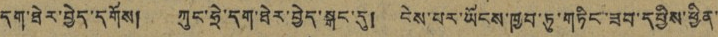དག་ཐེར་བྱེད་དགོས། ཀུང་ཧྲེ་དག་ཐེར་བྱེད་སྒང་དུ། ངེས་པར་ཡོངས་ཁྱབ་ཏུ་གཏིང་ཟབ་དབྱིས་ཕྱིན་
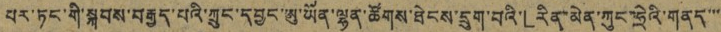པར་ཏང་གི་སྐབས་བརྒྱད་པའི་ཀྲུང་དབྱང་ཨུ་ཡོན་ལྷན་ཚོགས་ཐེངས་དྲུག་པའི་「རིན་མེན་ཀུང་ཧྲེའི་གནད་་་་
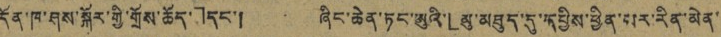དོན་ཁ་ཤས་སྐོར་གྱི་གྲོས་ཆོད་」དང་། ཞིང་ཆེན་ཏང་ཨུའི་「མུ་མཐུད་དུ་དབྱིས་ཕྱིན་པར་རིན་མེན་
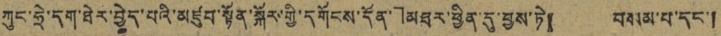ཀུང་ཧྲེ་དག་ཐེར་བྱེད་པའི་མཛུབ་སྟོན་སྐོར་གྱི་དགོངས་དོན་」མཐར་ཕྱིན་དུ་བྱས་ཏེ། བསམ་པ་དང་།
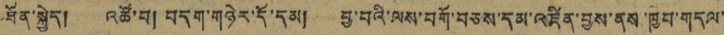ཐོན་སྐྱེད། འཚོ་བ། བདག་གཉེར་དོ་དམ། བྱ་བའི་ལས་བགོ་བཅས་དམ་འཛིན་བྱས་ནས་ཁྱབ་གདལ་
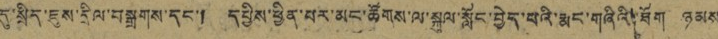དུ་སྲིད་ཇུས་དྲིལ་བསྒྲགས་དང་། དཔྱིས་ཕྱིན་པར་མང་ཚོགས་ལ་སྐུལ་སློང་བྱེད་པའི་རྨང་གཞིའི་ཐོག ཉམས
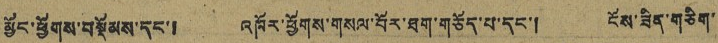མྱོང་ཕྱོགས་བསྡོམས་དང་། འཁོར་ཕྱོགས་གསལ་པོར་ཐག་གཅོད་པ་དང་། ངོས་ཟིན་གཅིག་
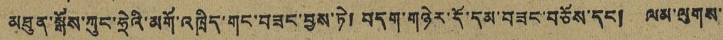མཐུན་སྒོས་ཀུང་ཧྲེའི་མགོ་འཁྲིད་གང་བཟང་བྱས་ཏེ། བདག་གཉེར་དོ་དམ་བཟང་བཅོས་དང་། ལམ་ལུགས་
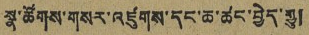སྣ་ཚོགས་གསར་འཛུགས་དང་ཆ་ཚང་བྱེད་རྒྱུ།
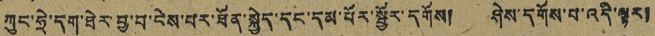ཀུང་ཧྲེ་དག་ཐེར་བྱ་བ་ངེས་པར་ཐོན་སྐྱེད་དང་དམ་པོར་སྦྱོར་དགོས། ཤེས་དགོས་པ་འདི་ལྟར།
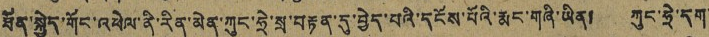ཐོན་སྐྱེད་གོང་འཕེལ་ནི་རིན་མེན་ཀུང་ཧྲེ་སྲ་བརྟན་དུ་བྱེད་པའི་དངོས་པོའི་རྨང་གཞི་ཡིན། ཀུང་ཧྲེ་དག་
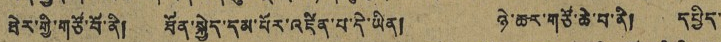ཐེར་གྱི་གཙོ་བོ་ནི། ཐོན་སྐྱེད་དམ་པོར་འཛིན་པ་དེ་ཡིན། ཉེར་ཆར་གཙོ་ཆེ་བ་ནི། དཔྱིད་
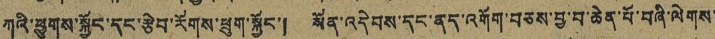ཀའི་ཕྱུགས་སྐྱོང་དང་རྩེབ་རོགས་ཕྲུག་སྐྱོང་། སོན་འདེབས་དང་ནད་འགོག་བཅས་བྱས་བ་ཆེན་པོ་བཞི་ལེགས་
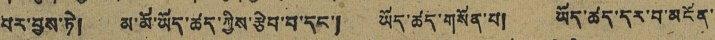པར་བྱས་ཏེ། མ་མོ་ཡོད་ཚད་ཀྱིས་རྩེབ་བ་དང་། ཡོད་ཚད་གསོན་པ། ཡོད་ཚད་དར་བ་མངོན་
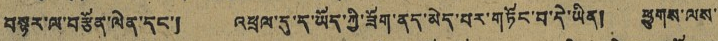བསྟར་ལ་བརྩོན་ལེན་དང་། འཕྲལ་དུ་ད་ཡོད་ཀྱི་ཟོག་ནད་མེད་པར་གཏོང་བ་དེ་ཡིན། ཕྱུགས་ལས་
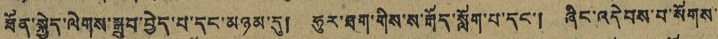ཐོན་སྐྱེད་ལེགས་སྒྲུབ་བྱེད་པ་དང་མཉམ་དུ། ཧུར་ཐག་གིས་ས་རྒོད་སློག་པ་དང་། ཞིང་འདེབས་བ་སོགས་
